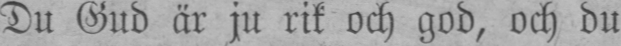Du Gud är ju rik och god, och du
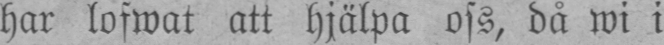har lofwat att hjälpa oss, då wi i
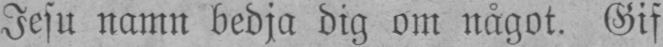Jesu namn bedja dig om något. Gif
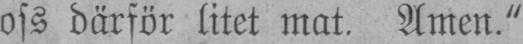oss därför litet mat. Amen."
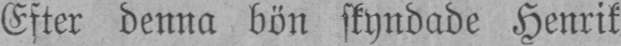Efter denna bön skyndade Henrik
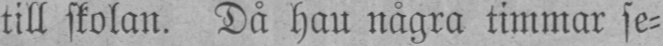till skolan. Då han några timmar se-
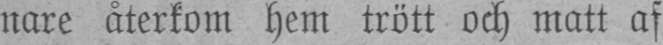nare återkom hem trött och matt af
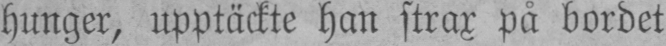hunger, upptäckte han strax på bordet
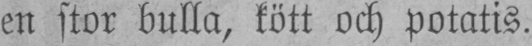en stor bulla, kött och potatis.
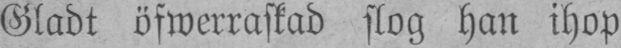Gladt öfwerraskad slog han ihop
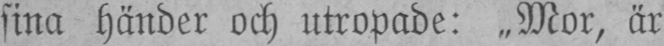sina händer och utropade: „Mor, är
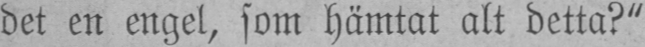det en engel, som hämtat alt detta?"
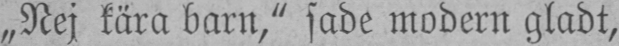„Nej kära barn," sade modern gladt,
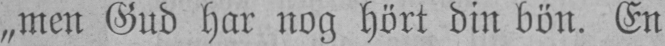„men Gud har nog hört din bön. En
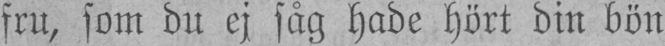fru, som du ej såg hade hört din bön
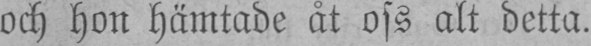och hon hämtade åt oss alt detta.
